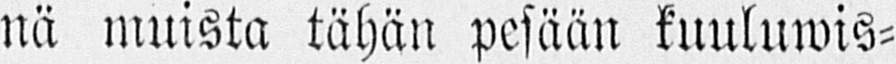nä muista tähän pesään kuuluwis-
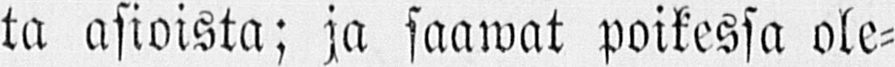ta asioista; ja saawat poikessa ole-
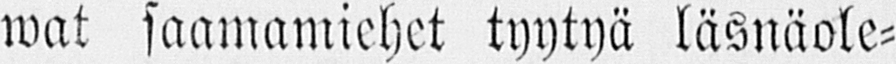wat saamamiehet tyytyä läsnäole-
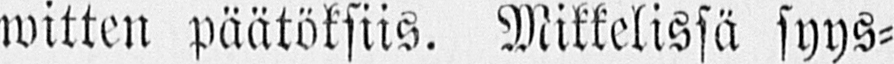witten päätöksiis. Mikkelissä syys-
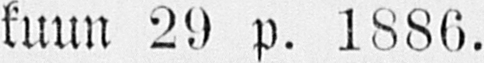kuun 29 p. 1886.
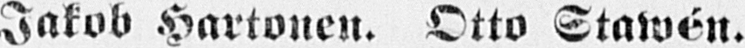Jakob Hartonen. Otto Stawén.
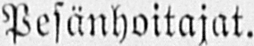Pesänhoitajat.
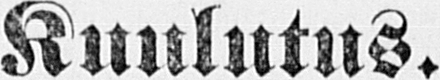Kuulutus.
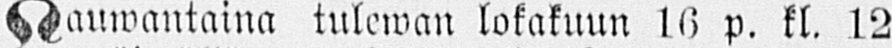Lauwantaina tulewan lokakuun 16 p. kl. 12
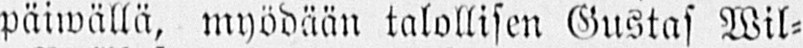päiwällä, myödään talollisen Gustas Wil-
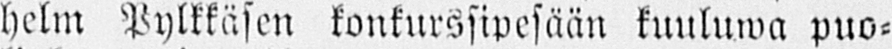helm Pylkkäsen konkurssipesään kuuluwa puo-
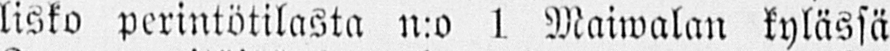lisko perintötilasta n:o 1 Maiwalan kylässä
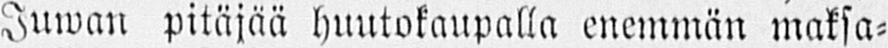Juwan pitäjää huutokaupalla enemmän maksa-
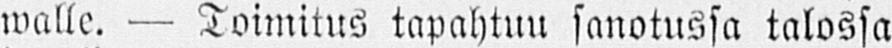walle. — Toimitus tapahtuu sanotussa talossa
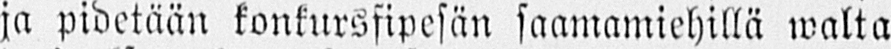ja pidetään konkurssipesän saamamiehillä walta
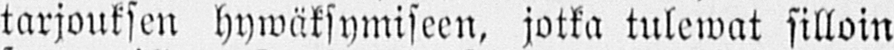tarjouksen hywäksymiseen, jotka tulewat silloin
